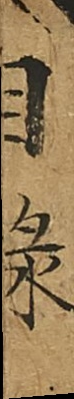目錄
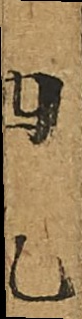四九
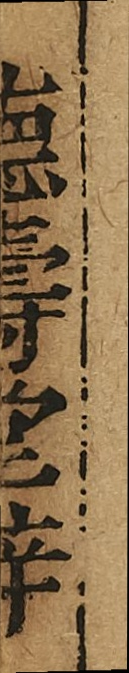德壽堂梓
